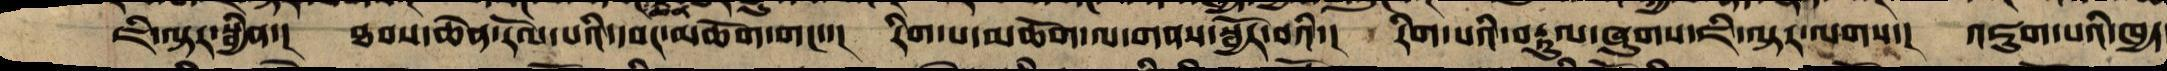ཇི་ལྟར་སྦྱིན་།  ཐབས་ཆེན་རོལ་པའི་དབང་མཆོག་གང་་།  རིག་པ་མཆོག་ལ་གནས་སྦྱོར་བའི་།  རིག་པའི་བརྟུལ་ཞུགས་ཇི་ལྟར་ལགས་།  འཇུག་པའི་ཁྱད
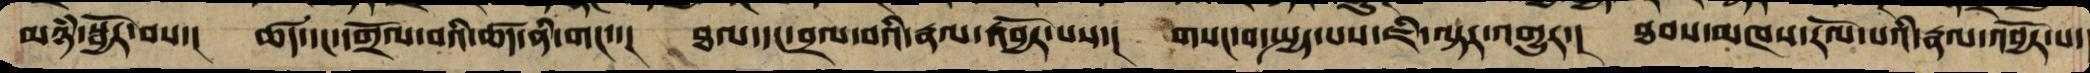མཉཾ་སྦྱོར་བས་།  ཚད་དང་དགྲོལ་བའི་ཚད་ནི་གང་་།  ཐབས་དང་བྲལ་བའི་རྣལ་འབྱོར་པས་།  གསང་བ་སྤྱད་པས་ཇི་ལྟར་འགྱུར་།  ཐབས་མཁས་རོལ་པའི་རྣལ་འབྱོར་པ་
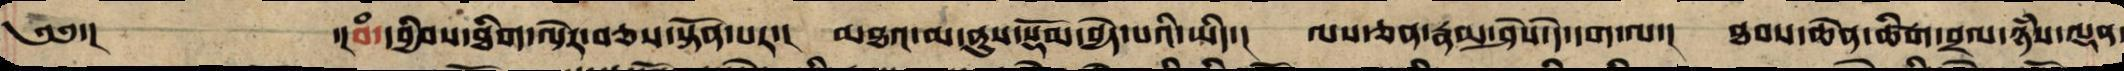༄༅་། ་།བཾ་དབྱིབས་ཐིག་ལེར་བཅས་སྟོན་པར་། མཐའ་མ་ནུས་སྡོམ་བྱེད་པའི་ཡིད་། ལས་ཅན་རྣམས་ཤེས་དེ་དག་ལ་། ཐབས་ཆེན་ཚིག་བྲལ་ཉཾས་ལྡན་
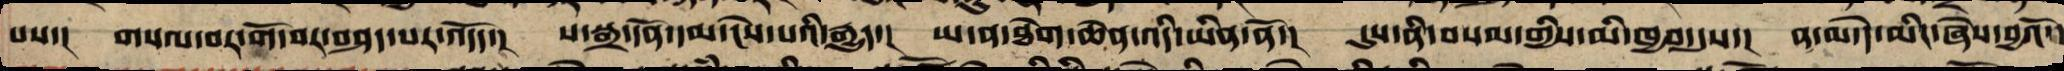པས་། གསལ་བར་གོ་བས་བཤད་པར་འདོད་། པ་སྒྲ་དོན་དམ་ངེས་པའི་རྒྱུད་། ཡ་ན་ཐེག་ཆེན་འདི་ཡིན་ནོ་། དུས་ནི་བསམ་གྱིས་མི་ཁྱབ་དུས་། ན་མ་དེ་མིང་ཞེས་བྱའོ་།
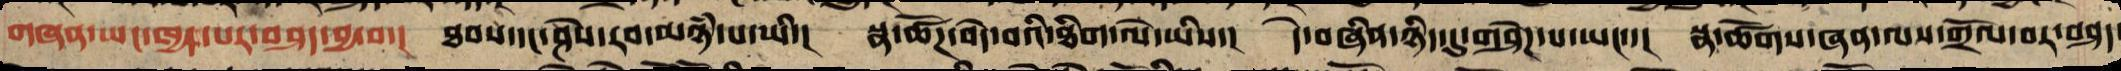གཞན་ཡང་ཁྱད་པར་བཤད་བྱ་བ་། ཐབས་དང་ཤེས་རབ་མཉཾ་པ་ཡི་། སྣ་ཚོཌ་བདེ་བའི་ཐིག་ལེ་ཡིས་། དེ་བཞིན་ཉིད་དུ་གཤེཌ་པ་ཡང་་། སྣ་ཚོགས་ཞན་ལས་གྲོལ་བར་བཤད་
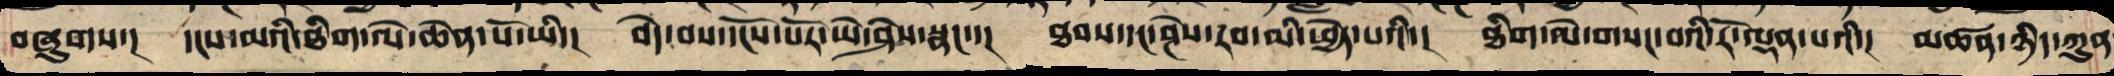བཞུགས་། དྭངས་མའི་ཐིག་ལེ་ཆེན་པོ་ཡི་། བདེ་བའི་དངོས་པོར་ཡེ་ཤེས་སྣང་་། ཐབས་དང་ཤེས་རབ་མི་ཕྱེད་པའི་། ཐིག་ལེ་གསང་བའི་རོ་ལྡན་པའི་། མཚན་ཉིད་ཀུན་
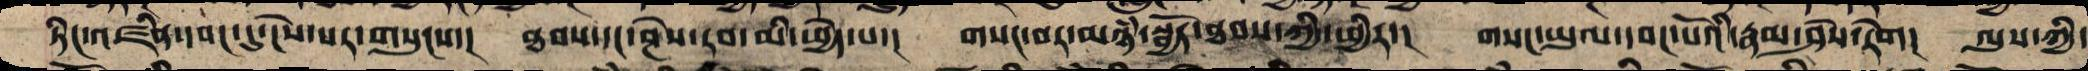ཏིང་འཛིན་དབང་དུ་ངེས་པར་གསུངས་། ཐབས་དང་ཤེས་རབ་མི་ཕྱེད་པ་། གསང་བར་མཉཾ་སྦྱོར་ཐབས་ཀྱི་ཕྱིར་། གསང་ཡུལ་དབང་པོའི་རྣམ་ཤེས་རེག། ལུས་ཀྱི་
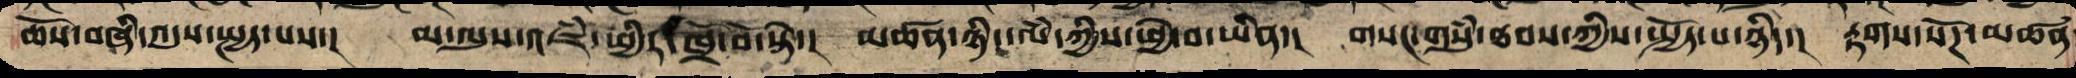ཆོས་བཞི་འདུས་སྤྱད་པས་། མ་ལུས་འཇཾ་ཕྱིར་ཁྲོ་བོ་སྟེ་། མཚན་ཉིད་ལཾ་ཀྱིས་ཕྱེ་བ་ཡིན་། གསང་གསུཾ་ཐབས་ཀྱི་སྤྱོད་པ་ཉིད་། རྟགས་སོཌ་མཚན་
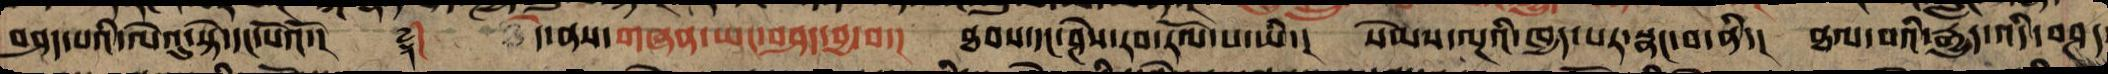བཤད་པའི་ལེའུ་སྟེ་དང་པོའོ།་། ༈། དེ་ནས་གཞན་ཡང་བཤད་བྱ་བ་། ཐབས་དང་ཤེས་རབ་རོལ་པ་ཡི་། སེམས་ལྔའི་ཁྱད་པར་སྣང་བ་ནི་། ཐལ་བའི་རྒྱུད་འདི་བཤད་
